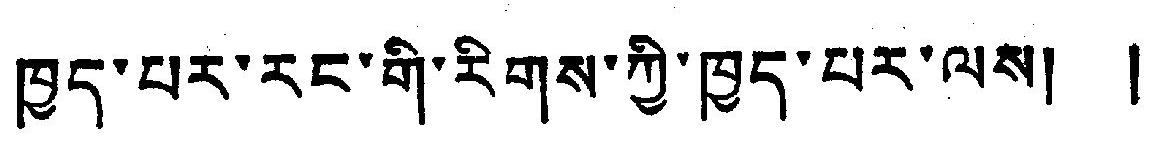ཁྱད་པར་རང་གི་རིགས་ཀྱི་ཁྱད་པར་ལས། །
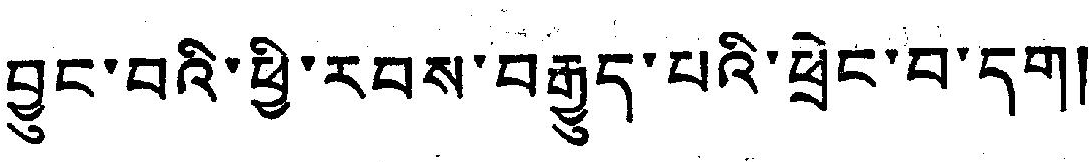བྱུང་བའི་ཕྱི་རབས་བརྒྱུད་པའི་ཕྲེང་བ་དགུ།
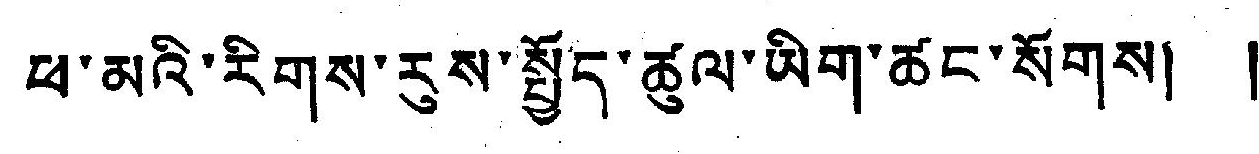ཕ་མའི་རིགས་རུས་སྤྱོད་ཚུལ་ཡིག་ཚང་སོགས། །
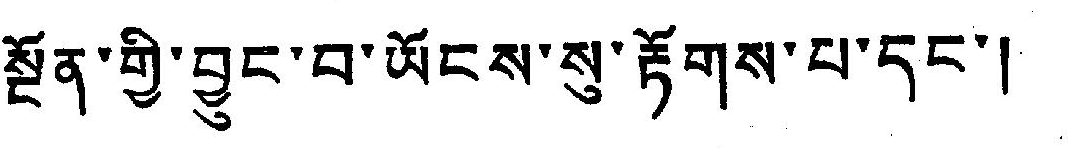ལྡོན་གྱི་བྱུང་བ་ཡོངས་སུ་རྟོགས་པ་དང་། །
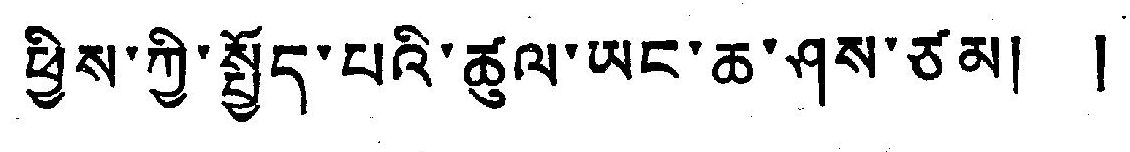ཕྱིས་ཀྱི་སྤྱོད་པའི་ཚུལ་ཡང་ཆ་ཤས་ཙམ། །
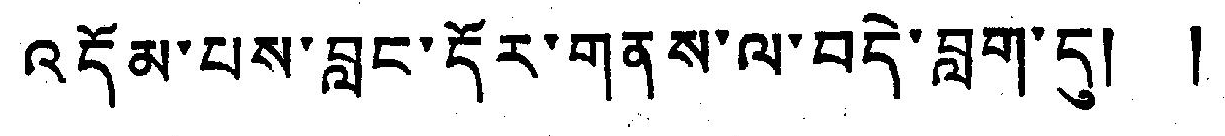འདོམ་པས་བླང་དོར་གནས་ལ་བདེ་བླག་དུ། །
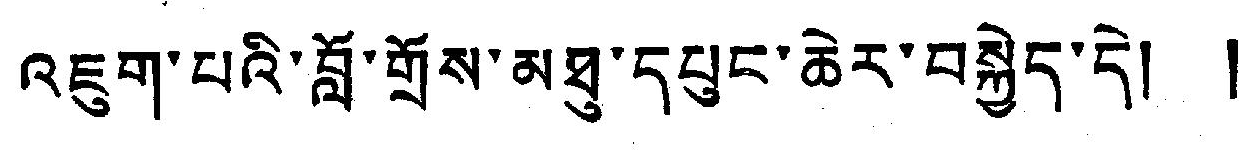འཇུག་པའི་བློ་གྲོས་མཐུ་དཔུང་ཆེར་བསྐྱེད་དེ། །
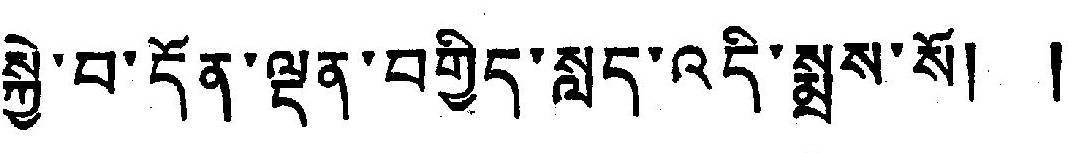སྐྱེ་བ་དོན་ལྡན་བགྱིག་སླད་འདི་སྨྲས་སོ། །
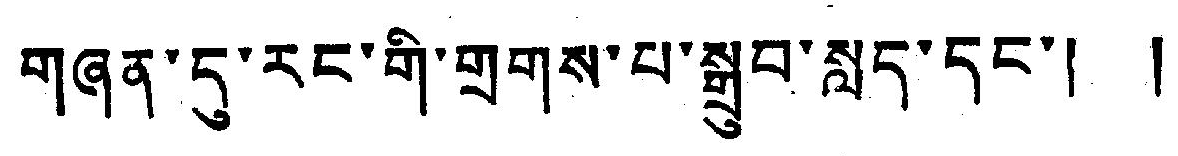གཞན་དུ་རང་གི་གྲགས་པ་སྒྲུབ་སླང་དང་། །
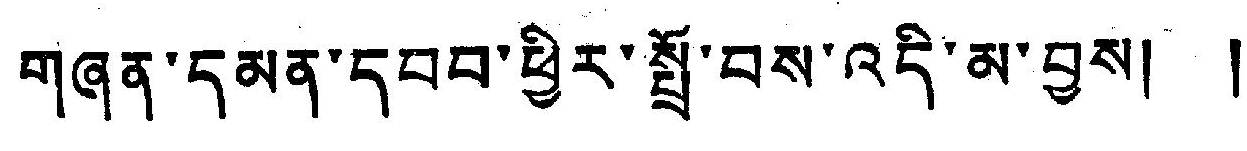གཞན་དམན་དབབ་ཕྱིར་སྤྲོ་བས་འདི་མ་བྱས། །
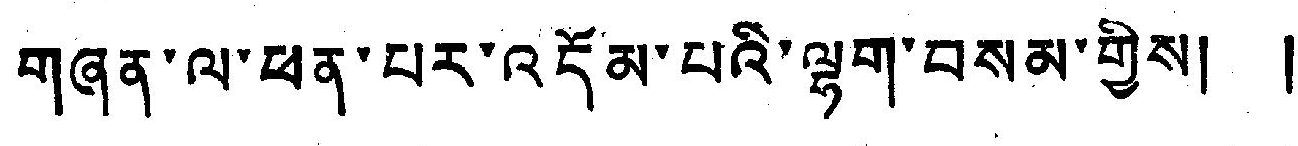གཞན་ལ་ཕན་པར་འདོམ་པའི་ལྷག་བསམ་གྱིས། །
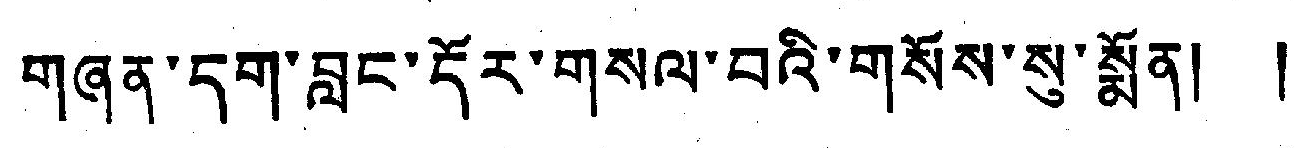གཞན་དབ་བླང་དོར་གསལ་བའི་གསོས་སུ་སྨོན། །
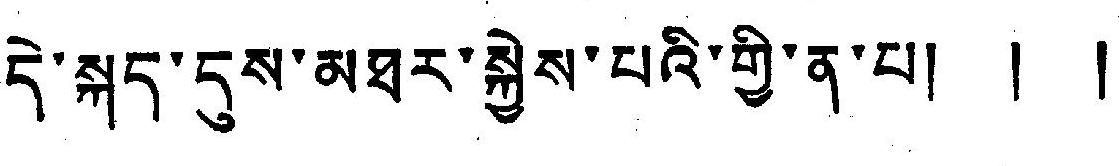དེ་སྐད་དུས་མཐར་སྐྱེས་པའི་གྱི་ན་པ། ། །
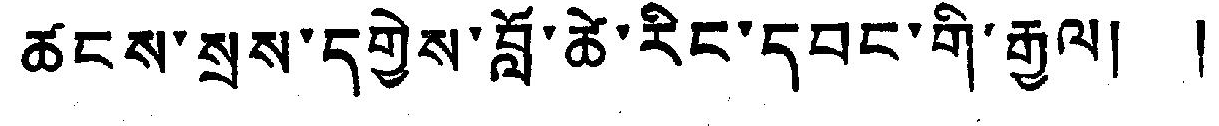ཚངས་སྲས་དགྱེས་བློ་ཚེ་རིང་དབང་གི་རྒྱལ། །
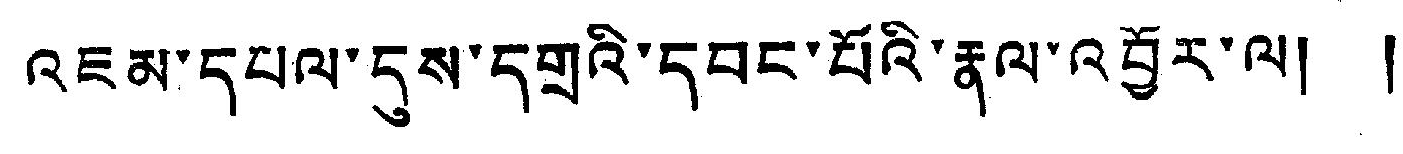འཇམ་དཔལ་དུས་དགྲའི་དབང་པོའི་རྣལ་འབྱོར་ལ། །
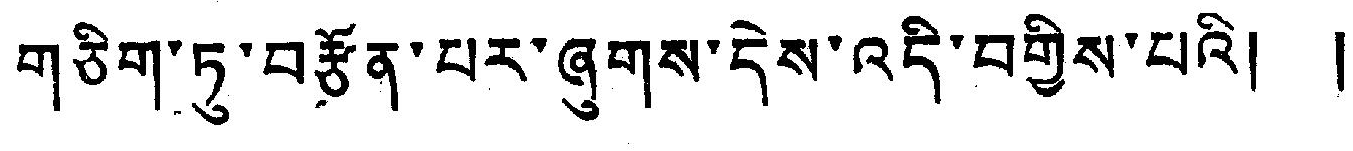གཅིག་ཏུ་བརྩོན་པར་ཞུགས་དེས་འདི་བགྱིས་པའི། །
